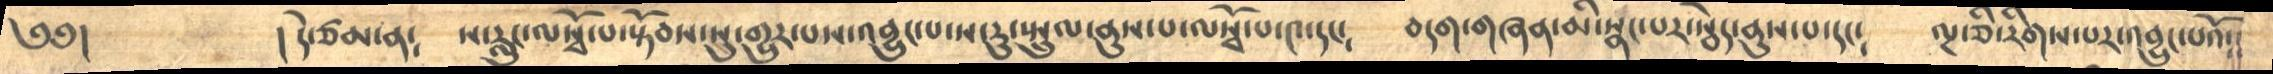༄༅།            ། དེ་ཙམ་ན༴   ས་རླུང་ལསྭོ་པ་སྟོབས་སུ་གྱུར་པས་འབྱུང་པ་ས་རུ་སྤྲུལ་ནུས་པ་ལསྭོ་པ་༤་དང༴  བདག་གཞན་མི་སྣང་པར་སྦེད་ནུས་པ་དང༴   ལྔ་ཅི་རིགས་པར་འབྱུང་པའོ༴༴
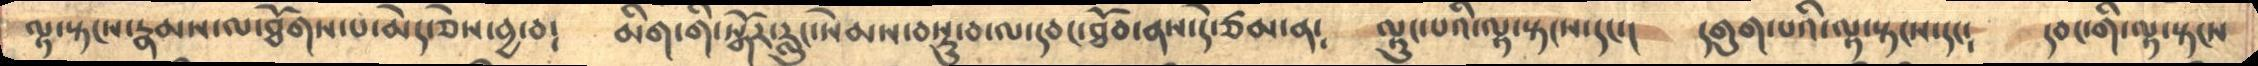ལྟ་སྟངས་རྣམས་ལ་ཐོགས་པ་མེད་ཅེས་བྱ་བ༴   མིག་གི་སྒོར་རླུང་སེམས་བསྡུ་བ་ལ་དབང་ཐོབ་ནས་དེ་ཙམ་ན༴   ལྟུང་པའི་ལྟ་སྟངས་དང་།  དགུག་པའི་ལྟ་སྟངས་དང༴   དབང་གི་ལྟ་སྟངས
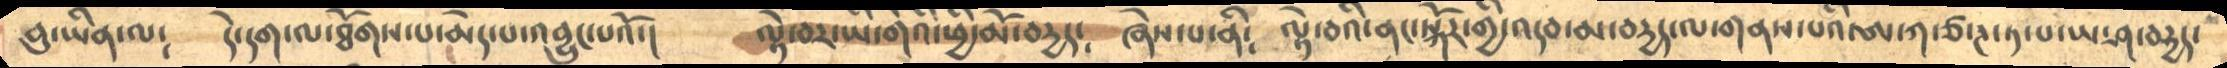བུ་ཡིན་ལ༴    དེ་དག་ལ་ཐོགས་པ་མེད་པ་འབྱུང་པའོ་།    ལྟེ་བར་ཡི་གེའི་ཕྱི་མོ་བདྱད༴  ཞེས་པ་ནི༴  ལྟེ་བའི་ནང་སྐོར་གྱི་འདབ་མ་བདྱད་ལ་གནས་པའི་ཨ་ཀ་ཙ་ཊ་ཏ་པ་ཡ་ཤ་བདྱད་
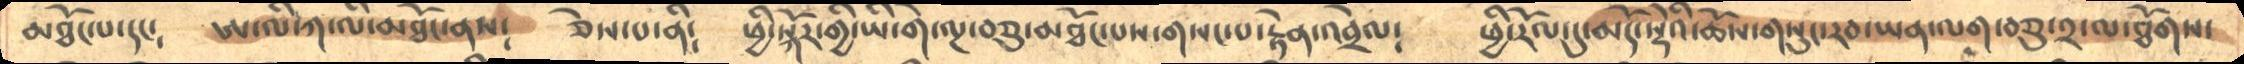མཐོང་པ་དང༴    ཨ་ལི་ཀ་ལི་མཐོང་ནས༴   ཅེས་པ་ནི༴   ཕྱི་སྐོར་གྱི་ཡི་གེ་ལྔ་བཅུ་མཐོང་པས་གསང་པ་རྟེན་འབྲེལ༴   ཕྱི་རོལ་དུ་མདོ་སྡེའི་ཆོས་གསུང་རབ་ཡན་ལག་བཅུ་༢་ལ་ཐོགས་
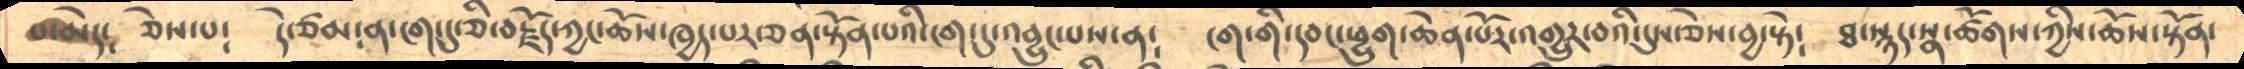པ་མེད༴    ཅེས་པ༴   དེ་ཙམ་ན་ངག་དུ་ཅི་བརྗོད་ཀྱང་ཆོས་ཁྱད་པར་ཅན་སྟོན་པའི་ངག་དུ་འབྱུང་པས་ན༴   ངག་གི་དབང་ཕྱུག་ཆེན་པོར་འགྱུར་བའི་དུས་ཅེས་བྱ་སྟེ༴  ཐ་སྙད་སྣ་ཚོགས་ཀྱིས་ཆོས་སྟོན་
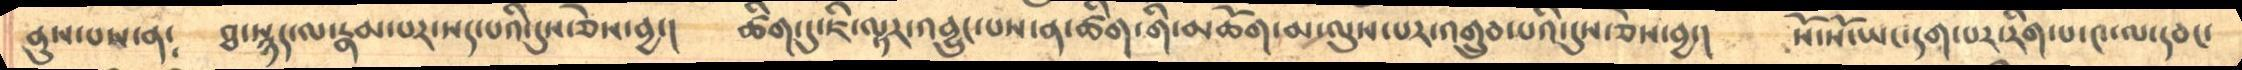ནུས་པས་ན༴    ཐ་སྙད་ལ་རྣམ་པར་སད་པའི་དུས་ཅེས་བྱ་།   ཚིག་དུ་ཇི་ལྟར་འབྱུང་པས་ན་ཚིག་གི་མཆོག་མ་ལུས་པར་འགྲུབ་པའི་དུས་ཅེས་བྱ་།    སོ་སོ་ཡང་དག་པར་རིག་པ་༤་ལ་དབང་
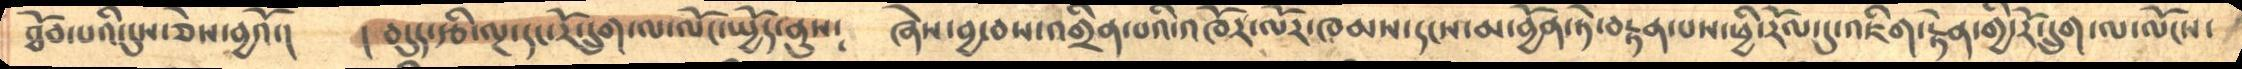ཐོབ་པའི་དུས་ཅེས་བྱའོ་།    ། བདུད་རྩི་ལྔ་དང་རོ་དྲུག་ལ་ལོང་སྤྱོད་ནུས༴    ཞེས་བྱ་བས་འགྲིན་པའི་འཁོར་ལོར་ཁམས་དངས་མ་བྱོན་ཏེ་བརྟན་པས་ཕྱི་རོལ་དུ་འཇིག་རྟེན་གྱི་རོ་དྲུག་ལ་ལོངས་
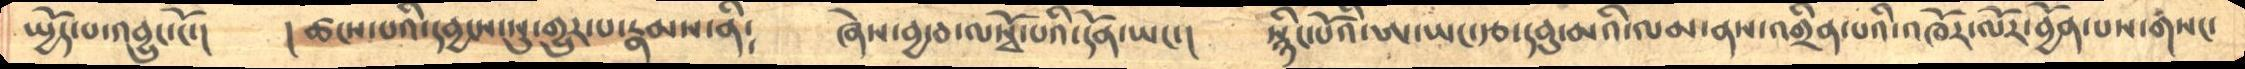སྤྱོད་པ་འབྱུང་ངོ་།     །ཚངས་པའི་དབྱངས་སུ་གྱུར་པ་རྣམས་ནི༴     ཞེས་བྱ་བ་ལསྭོ་པའི་དོན་ཡང་།    སྙིང་པོའི་ཨ་ཡང་རྩ་དབུ་མའི་ལམ་ནས་འགྲིན་པའི་འཁོར་ལོར་བྱོན་པས་གསང་
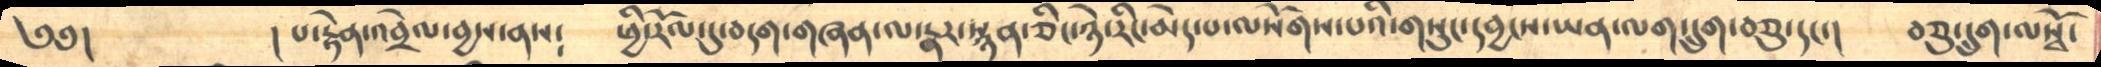༄༅།             ། པ་རྟེན་འབྲེལ་བྱས་ནས༴     ཕྱི་རོལ་དུ་བདག་གཞན་ལ་རྣར་སྙན་ཅིང་ཉེ་རིང་མེད་པ་ལསོགས་པའི་གསུང་དབྱངས་ཡན་ལག་དྲུག་བཅུ་དང་།    བཅུ་དྲུག་ལསྭོ་
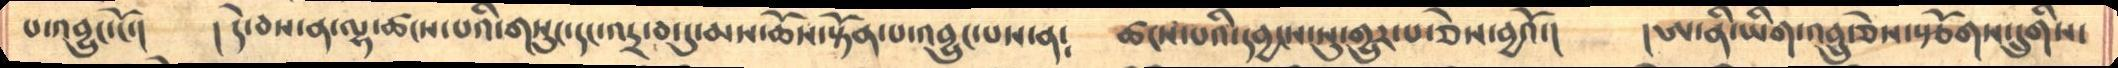པ་འབྱུང་ངོ་།    ། དེ་བས་ན་ལྷ་ཚངས་པའི་གསུང་དང་འདྲ་བ་དུ་མས་ཆོས་སྟོན་པ་འབྱུང་པས་ན༴   ཚངས་པའི་དབྱངས་སུ་གྱུར་པ་ཅེས་བྱའོ་།   །ཨ་ནི་ཡིག་འབྲུ་ཅེས་སྩོགས་དྲུགིས་
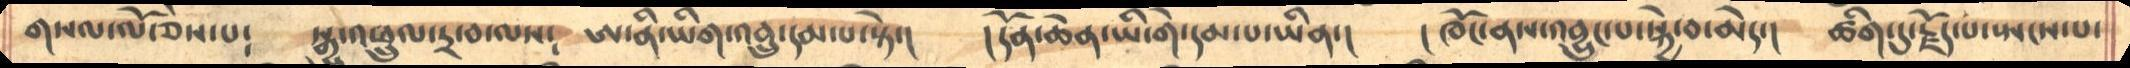གསལ་ལོ་ཅེས་པ༴     སྒྱུ་འཕྲུལ་དྲ་བ་ལས༴   ཨ་ནི་ཡིག་འབྲུ་དམ་པ་སྟེ་།    །དོན་ཆེན་ཡི་གེ་དམ་པ་ཡིན་།  །ཁོང་ནས་འབྱུང་པ་སྐྱེ་བ་མེད་།   ཚིག་དུ་རྗོད་པ་སྤངས་པ་
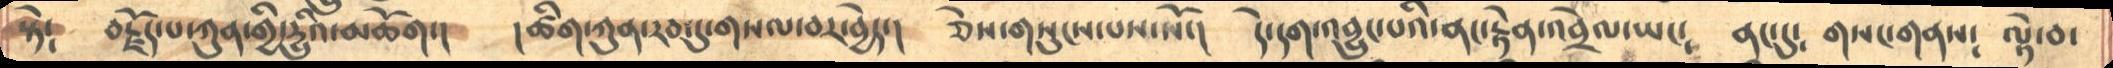སྟེ༴  བརྗོད་པ་ཀུན་གྱི་དྱུའི་མཆོག་།   །ཚིག་ཀུན་རབ་དུ་གསལ་བར་བྱེད་།   ཅེས་གསུངས་པས་སོ་།   དེ་དག་འབྱུང་པའི་ནང་རྟེན་འབྲེལ་ཡང༴   ནང་དུ༴  གསང་གནས༴  ལྟེ་བ་
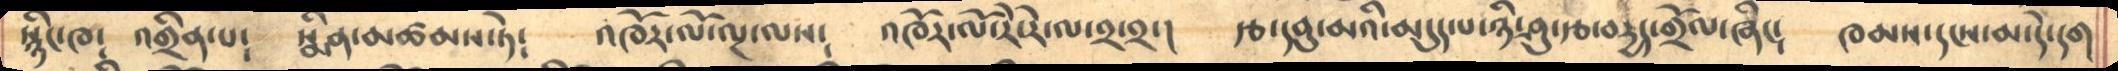སྙིང་ཁ༴   འགྲིན་པ༴  སྨིན་མཚམས་ཏེ༴  འཁོར་ལོ་ལྔ་ལས༴   འཁོར་ལོ་རེ་རེ་ལ་༢་༢་།  རྩ་དབུ་མའི་མདུད་པ་ཉི་ཤུ་རྩ་བདྱད་གྲོལ་ཞིང༴   ཁམས་དངས་མ་དེ་དག
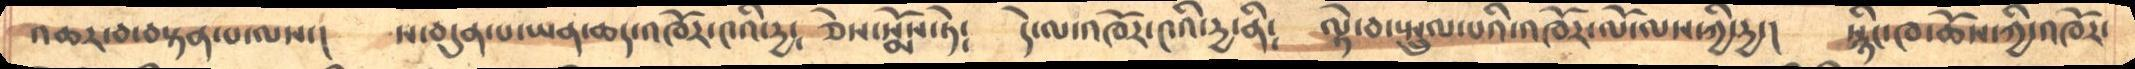འཆར་བ་བསྟན་པ་ལས་།    ས་བདུན་པ་ཡན་ཆད་འཁོར་༤འི་དྱ༴   ཅེས་སྨོས་ཏེ༴   དེ་ལ་འཁོར་༤འི་དྱ་ནི༴    ལྟེ་བ་སྤྲུལ་པའི་འཁོར་ལོ་ལས་ཀྱི་དྱ་།    སྙིང་ཁ་ཆོས་ཀྱི་འཁོར་
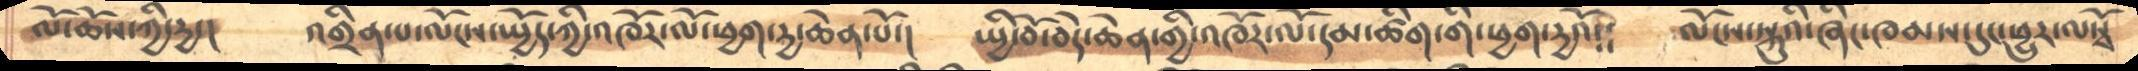ལོ་ཆོས་ཀྱི་དྱ་།   འགྲིན་པ་ལོངས་སྤྱོད་ཀྱི་འཁོར་ལོ་ཕྱག་དྱ་ཆེན་པོ་།    སྤྱི་བོ་བདེ་ཆེན་གྱི་འཁོར་ལོ་དམ་ཚིག་གི་ཕྱག་དྱའོ༴༴   ལོངས་སྐུའི་ཞིང་ཁམས་དུང་ཕྱུར་ལསྭོ
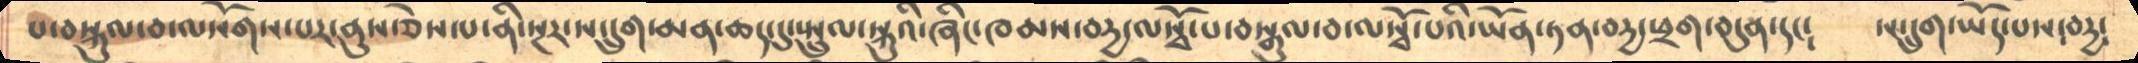པ་བསྐུལ་བ་ལསོགས་པར་ནུས་ཅེས་པ་ནི་སྔར་ས་དྲུག་མན་ཆད་དུ་སྤྲུལ་སྐུའི་ཞིང་ཁམས་བདྱ་ལསྭོ་པ་བསྒུལ་བ་ལསྭོ་པའི་ཡོན་ཏན་བདྱ་ཕྲག་བདུན་དང༴    ས་དྲུག་ཡོད་པས་བདྱ་
